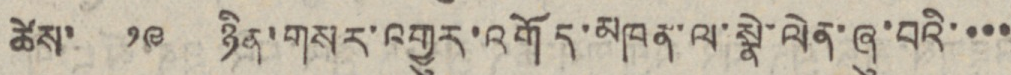ཚེས་ ༡༩ ཉིན་གསར་འགྱུར་འགོད་མཁན་ལ་སྣེ་ལེན་ཞུ་བའི་་་་
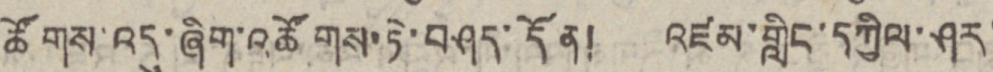ཚོགས་འདུ་ཞིག་འཚོགས་ཏེ་བཤད་དོན། འཛམ་གླིང་དཀྱིལ་ཤར་
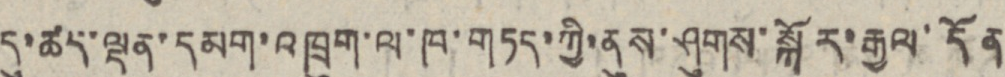དུ་ཚད་ལྡན་དམག་འཁྲུག་ལ་ཁ་གཏད་ཀྱི་ནུས་ཤུགས་སྐོར་རྒྱལ་དོན
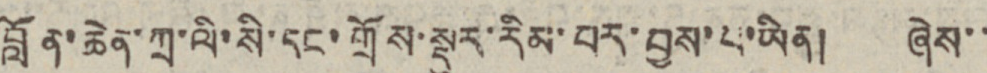བློན་ཆེན་ཀྲ་ལི་སི་དང་གྲོས་སྡུར་རིམ་པར་བྱས་པ་ཡིན། ཞེས་་
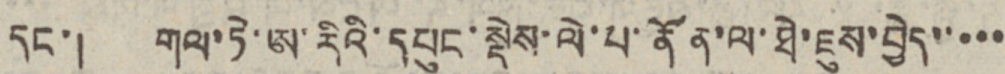དང་། གལ་ཏེ་ཨ་རིའི་དཔུང་སྡེས་ལེ་པ་ནོན་ལ་ཐེ་ཇུས་བྱེད་་་་་
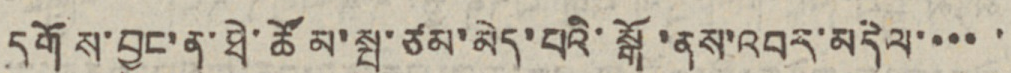དགོས་བྱུང་ན་ཐེ་ཚོམ་སྤུ་ཙམ་མེད་པའི་སྒོ་ནས་འབར་མདེལ་་་་་
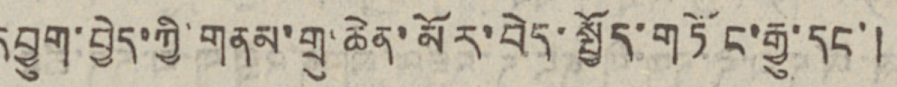དབྱུག་བྱེད་ཀྱི་གནམ་གྲུ་ཆེན་མོར་བེད་སྤྱོད་གཏོང་རྒྱུ་དང་།
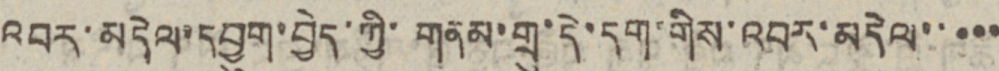འབར་མདེལ་དབྱུག་བྱེད་ཀྱི་གནམ་གྲུ་དེ་དག་གིས་འབར་མདེལ་་་་་
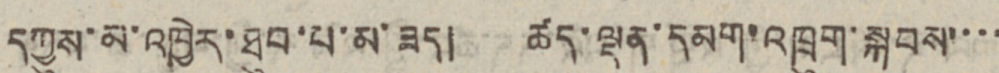དཀྱུས་མ་འཁྱེར་ཐུབ་པ་མ་ཟད། ཚད་ལྡན་དམག་འཁྲུག་སྐབས་་་་
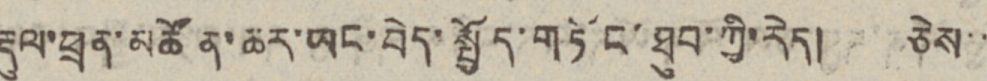རྡུལ་ཕྲན་མཚོན་ཆར་ཡང་བེད་སྤྱོད་གཏོང་ཐུབ་ཀྱི་རེད། ཅེས་་
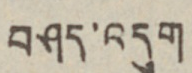བཤད་འདུག
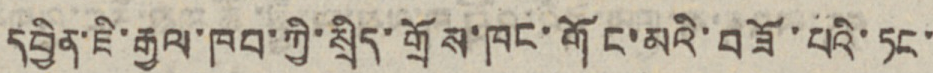དབྱིན་ཇི་རྒྱལ་ཁབ་ཀྱི་སྲིད་གྲོས་ཁང་གོང་མའི་བཟོ་པའི་ཏང་
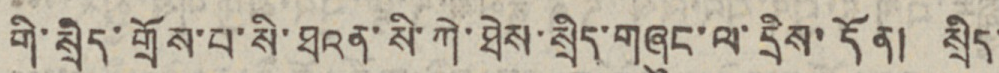གི་སྲིད་གྲོས་པ་སི་ཐའན་སི་ཀེ་ཐེས་སྲིད་གཞུང་ལ་དྲིས་དོན། སྲིད་
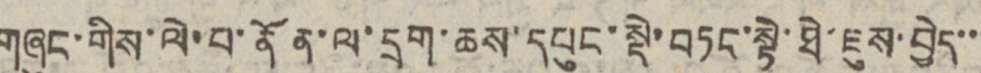གཞུང་གིས་ལེ་པ་ནོན་ལ་དྲག་ཆས་དཔུང་སྡེ་བཏང་སྟེ་ཐེ་ཇུས་བྱེད་་་
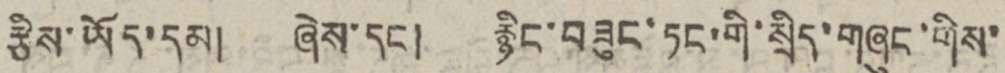རྩིས་ཡོད་དམ། ཞེས་དང་། རྙིང་བཟུང་ཏང་གི་སྲིད་གཞུང་གིས་
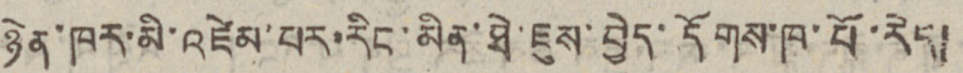ཉེན་ཁར་མི་འཛེམ་པར་རིང་མིན་ཐེ་ཇུས་བྱེད་དོགས་ཁ་པོ་རེད།
